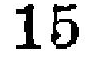15
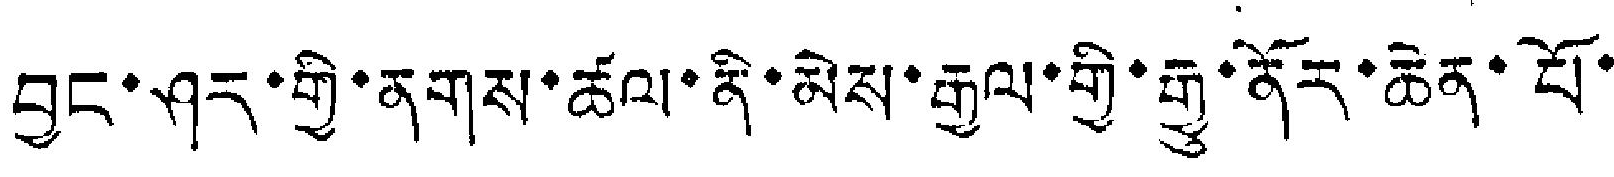བྱང་ཤར་གྱི་ནགས་ཚལ་ནི་མེས་རྒྱལ་གྱི་རྒྱུ་ནོར་ཆེན་པོ་
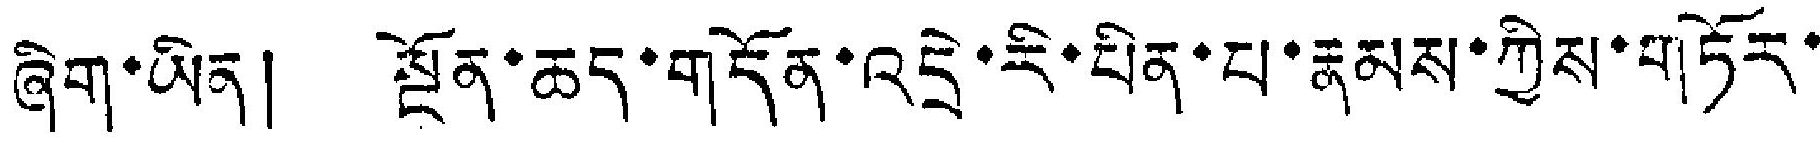ཞིག་ཡིན། སྔོན་ཆད་གདོན་འདྲེ་རི་པིན་པ་རྣམས་ཀྱིས་གཏོར་
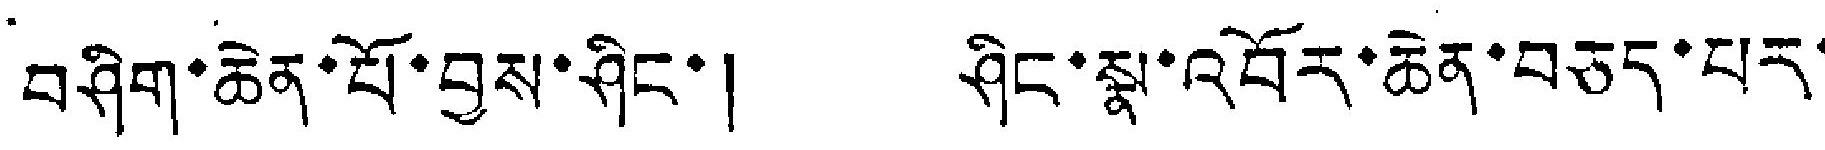བཤིག་ཆེན་པོ་བྱས་ཤིང་། ཤིང་སྣ་འབོར་ཆེན་བཅད་པར་
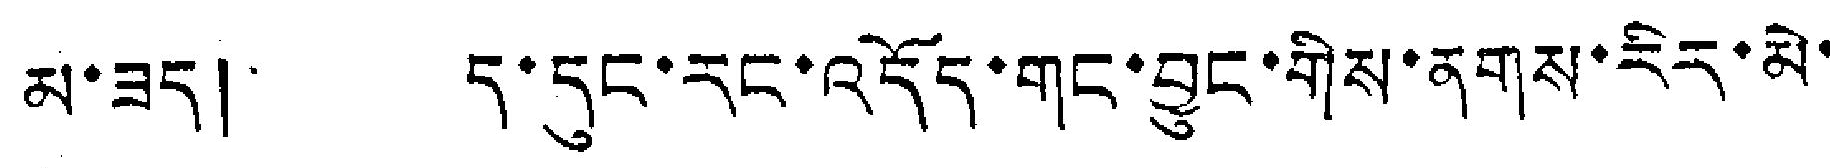མ་ཟད། ད་དུང་རང་འདོད་གང་བྱུང་གིས་ནགས་རིར་མེ་
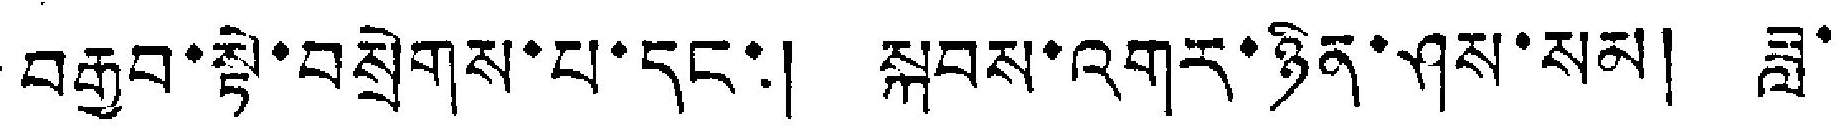བརྒྱབ་སྟེ་བསྲེགས་པ་དང་། སྐབས་འགར་ཉིན་ཤས་སམ། ཟླ་
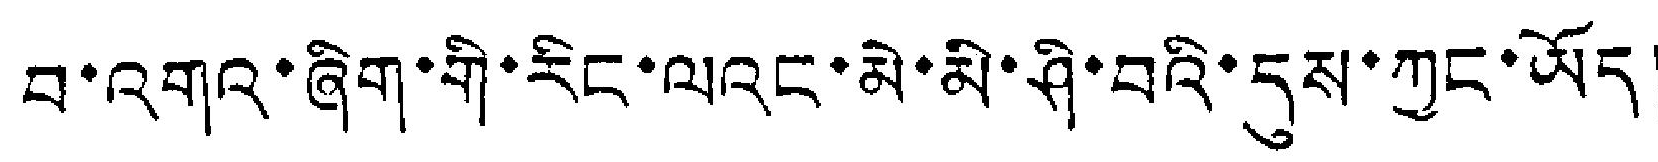བ་འགའ་ཞིག་གི་རིང་ལའང་མེ་མི་ཤི་བའི་དུས་ཀྱང་ཡོད་
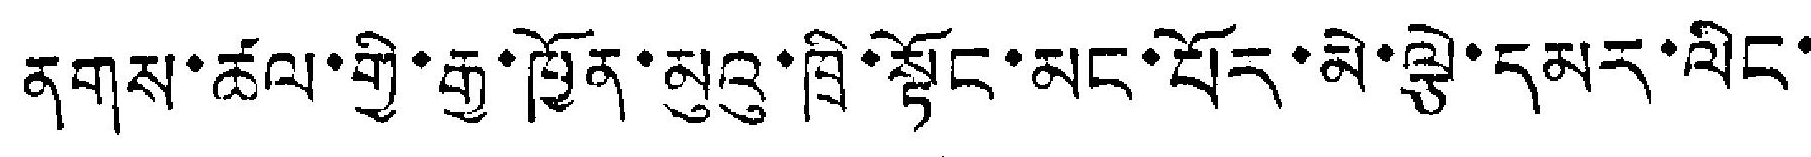ནགས་ཚལ་གྱི་རྒྱ་ཁྱོན་མུའུ་ཁྲི་སྟོང་མང་པོར་མེ་ལྕེ་དམར་ལིང་
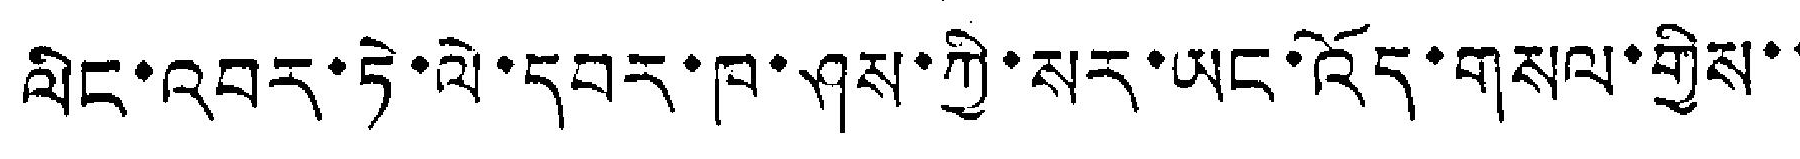ལིང་འབད་ཏེ་ལེ་དབར་ཁ་ཤས་ཀྱི་སར་ཡང་འོད་གསལ་གྱིས་་
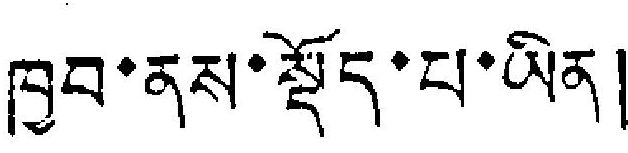ཁྱབ་ནས་སྡོད་པ་ཡིན།
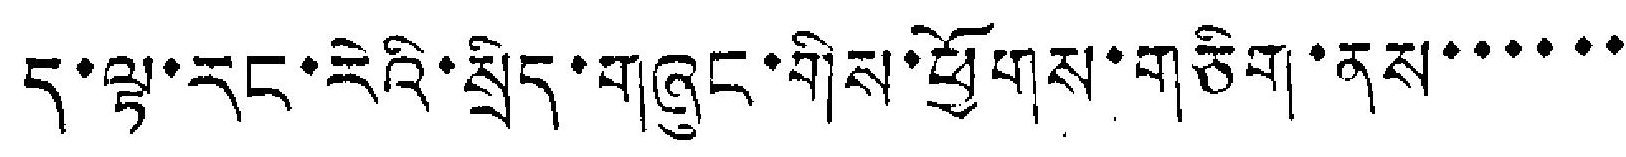ད་ལྟ་རང་རེའི་སྲིད་གཞུང་གིས་ཕྱོགས་གཅིག་ནས་་་་་་
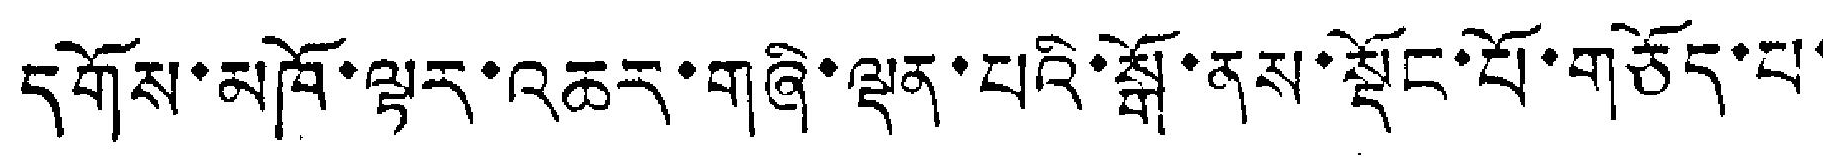དགོས་མཁོ་ལྟར་འཆར་གཞི་ལྡན་པའི་སྒོ་ནས་སྡོང་པོ་གཅོད་པ་
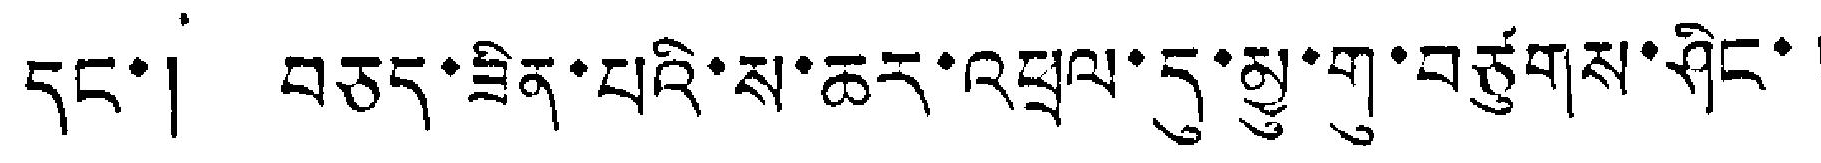དང་། བཅད་ཟིན་པའི་ས་ཆར་འཕྲལ་དུ་མྱུ་གུ་བཙུགས་ཤིང་།
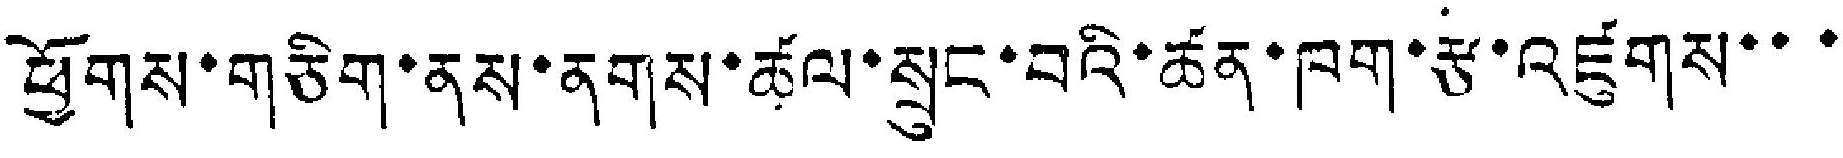ཕྱོགས་གཅིག་ནས་ནགས་ཚལ་སྲུང་བའི་ཚན་ཁག་རྩ་འཛུགས་་་
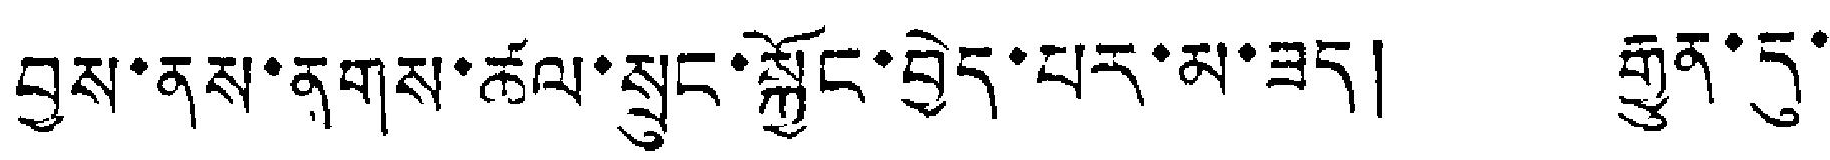བྱས་ནས་ནགས་ཚལ་སྲུང་སྐྱོང་བྱེད་པར་མ་ཟད། རྒྱུན་དུ་
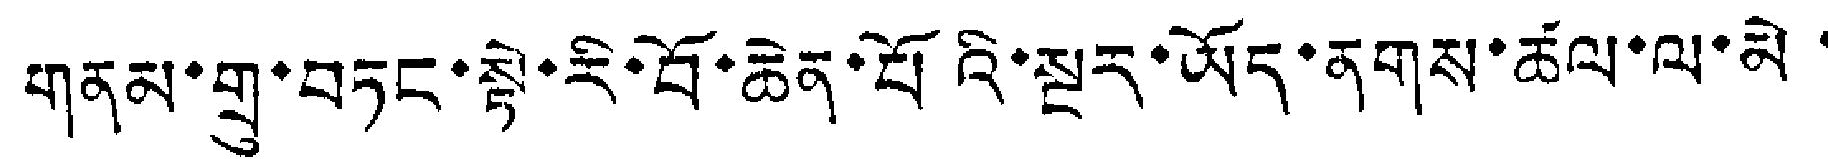གནམ་གྲུ་བཏང་སྟེ་རི་བོ་ཆེན་པོའི་སྔར་ཡོད་ནགས་ཚལ་ལ་མེ་
